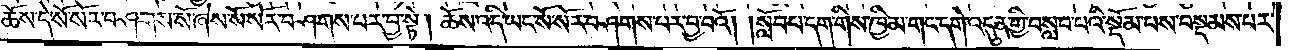ཆོས་དེ་སོ་སོར་བཤགས་སོ་ཞེས་སོ་སོར་བཤགས་པར་བྱ་སྟེ། ཆོས་འདི་ཡང་སོ་སོར་བཤགས་པར་བྱ་བའོ། །སློབ་པ་དག་གིས་ཁྱིམ་གང་དགེ་འདུན་གྱི་བསླབ་པའི་སྡོམ་པས་བསྡམས་པར་
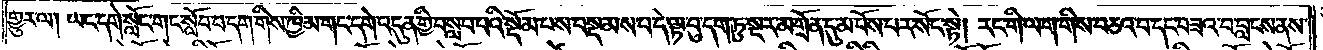གྱུར་ལ། ཡང་དགེ་སློང་གང་སློབ་པ་དག་གིས་ཁྱིམ་གང་དགེ་འདུན་གྱི་བསླབ་པའི་སྡོམ་པས་བསྡམས་པ་དེ་ལྟ་བུ་དག་ཏུ་སྔར་མགྲོན་དུ་མ་བོས་པར་སོང་སྟེ། རང་གི་ལག་གིས་བཅའ་བ་དང་བཟའ་བ་བླངས་ནས་
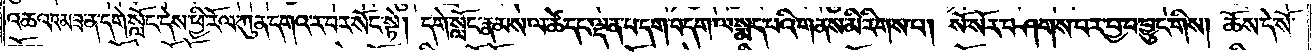འཆའ་འམ་ཟ་ན་དགེ་སློང་དེས་ཕྱི་རོལ་ཀུན་དགའ་ར་བར་སོང་སྟེ། དགེ་སློང་རྣམས་ལ་ཚེ་དང་ལྡན་པ་དག་བདག་ལ་སྨད་པའི་གནས་མི་རིགས་པ། སོ་སོར་བཤགས་པར་བྱ་བ་བྱུང་གིས། ཆོས་དེ་སོ་
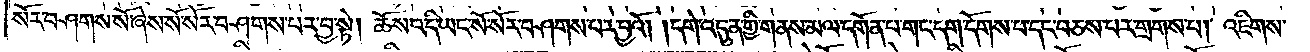སོར་བཤགས་སོ་ཞེས་སོ་སོར་བཤགས་པར་བྱ་སྟེ། ཆོས་འདི་ཡང་སོ་སོར་བཤགས་པར་བྱའོ། །དགེ་འདུན་གྱི་གནས་མལ་དགོན་པ་གང་དག་དོགས་པ་དང་བཅས་པར་གྲགས་པ། འཇིགས་
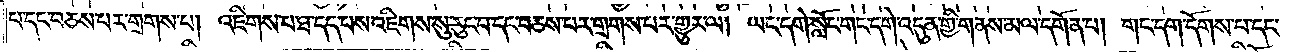པ་དང་བཅས་པར་གྲགས་པ། འཇིགས་པ་ཐ་དད་པས་འཇིགས་སུ་རུང་བ་དང་བཅས་པར་གྲགས་པར་གྱུར་ལ། ཡང་དགེ་སློང་གང་དགེ་འདུན་གྱི་གནས་མལ་དགོན་པ། གང་དག་དོགས་པ་དང་
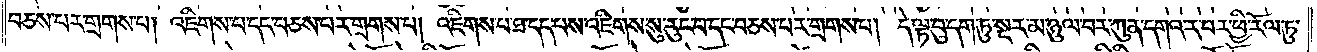བཅས་པར་གྲགས་པ། འཇིགས་པ་དང་བཅས་པར་གྲགས་པ། འཇིགས་པ་ཐ་དད་པས་འཇིགས་སུ་རུང་བ་དང་བཅས་པར་གྲགས་པ། དེ་ལྟ་བུ་དག་ཏུ་སྔར་མ་ཉུལ་བར་ཀུན་དགའ་ར་བར་ཕྱི་རོལ་ཏུ་
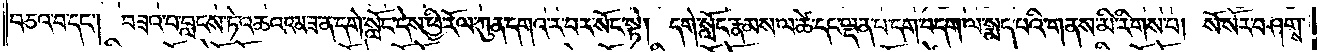བཅའ་བ་དང༌། བཟའ་བ་བླངས་ཏེ་འཆའ་འམ་ཟ་ན་དགེ་སློང་དེས་ཕྱི་རོལ་ཀུན་དགའ་ར་བར་སོང་སྟེ། དགེ་སློང་རྣམས་ལ་ཚེ་དང་ལྡན་པ་དག་བདག་ལ་སྨད་པའི་གནས་མི་རིགས་པ། སོ་སོར་བཤགས་
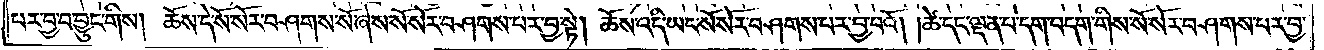པར་བྱ་བ་བྱུང་གིས། ཆོས་དེ་སོ་སོར་བཤགས་སོ་ཞེས་སོ་སོར་བཤགས་པར་བྱ་སྟེ། ཆོས་འདི་ཡང་སོ་སོར་བཤགས་པར་བྱ་བའོ། །ཚེ་དང་ལྡན་པ་དག་བདག་གིས་སོ་སོར་བཤགས་པར་བྱ་
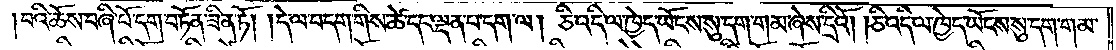།བའི་ཆོས་བཞི་པོ་དག་བཏོན་ཟིན་ཏོ། །དེ་ལ་བདག་གིས་ཚེ་དང་ལྡན་པ་དག་ལ། ཅི་འདི་ལ་ཁྱེད་ཡོངས་སུ་དག་གམ་ཞེས་དྲིའོ། །ཅི་འདི་ལ་ཁྱེད་ཡོངས་སུ་དག་གམ་
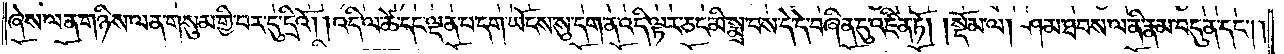ཞེས་ལན་གཉིས་ལན་གསུམ་གྱི་བར་དུ་དྲིའོ། །འདི་ལ་ཚེ་དང་ལྡན་པ་དག་ཡོངས་སུ་དག་ན་འདི་ལྟར་ཅང་མི་སྨྲ་བས་དེ་དེ་བཞིན་དུ་འཛིན་ཏོ།    །སྡོམ་ལ། ཤམ་ཐབས་ལ་ནི་རྣམ་བདུན་དང༌། །
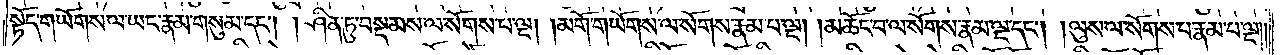སྟོད་གཡོགས་ལ་ཡང་རྣམ་གསུམ་དང༌། །ཤིན་ཏུ་བསྡམས་ལ་སོགས་པ་ལྔ། །མགོ་གཡོགས་ལ་སོགས་རྣམ་པ་ལྔ། །མཆོང་པ་ལ་སོགས་རྣམ་ལྔ་དང༌། །ལུས་ལ་སོགས་པ་རྣམ་པ་ལྔ༎
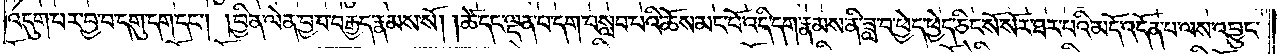འདུག་པར་བྱ་བ་དགུ་དག་དང༌། །བྱིན་ལེན་བྱ་བ་བརྒྱད་རྣམས་སོ། །ཚེ་དང་ལྡན་པ་དག་བསླབ་པའི་ཆོས་མང་པོ་འདི་དག་རྣམས་ནི་ཟླ་བ་ཕྱེད་ཕྱེད་ཅིང་སོ་སོར་ཐར་པའི་མདོ་འདོན་པ་ལས་འབྱུང་
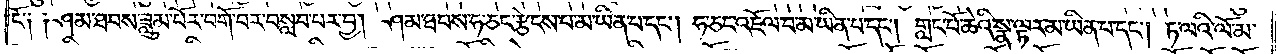ངོ༑ ༑ཤམ་ཐབས་ཟླུམ་པོར་བགོ་བར་བསླབ་པར་བྱ། ཤམ་ཐབས་ཧ་ཅང་རྩེངས་པ་མ་ཡིན་པ་དང༌། ཧ་ཅང་འཇོལ་བ་མ་ཡིན་པ་དང༌། གླང་པོ་ཆེའི་སྣ་ལྟར་མ་ཡིན་པ་དང༌། ཏ་ལའི་ལོ་མ་
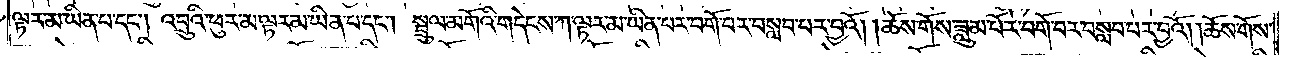ལྟར་མ་ཡིན་པ་དང༌། འབྲུའི་ཕུར་མ་ལྟར་མ་ཡིན་པ་དང༌། སྦྲུལ་མགོའི་གདེངས་ཀ་ལྟར་མ་ཡིན་པར་བགོ་བར་བསླབ་པར་བྱའོ། །ཆོས་གོས་ཟླུམ་པོར་བགོ་བར་བསླབ་པར་བྱའོ། །ཆོས་གོས་
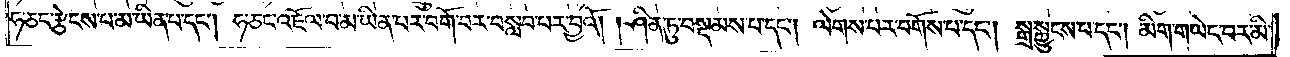ཧ་ཅང་རྩེངས་པ་མ་ཡིན་པ་དང༌། ཧ་ཅང་འཇོལ་བ་མ་ཡིན་པར་བགོ་བར་བསླབ་པར་བྱའོ། །ཤིན་ཏུ་བསྡམས་པ་དང༌། ལེགས་པར་བགོས་པ་དང༌། སྒྲ་སྐྱུངས་པ་དང༌། མིག་གཡེང་བར་མི་
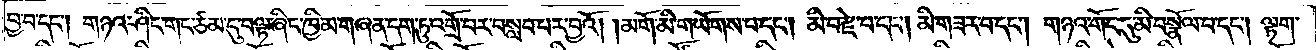བྱ་བ་དང༌། གཉའ་ཤིང་གང་ཙམ་དུ་བལྟ་ཞིང་ཁྱིམ་གཞན་དག་ཏུ་འགྲོ་བར་བསླབ་པར་བྱའོ། །མགོ་མི་གཡོགས་པ་དང༌། མི་བརྫེ་བ་དང༌། མི་གཟར་བ་དང༌། གཉའ་གོང་དུ་མི་བསྣོལ་བ་དང༌། ལྟག་
